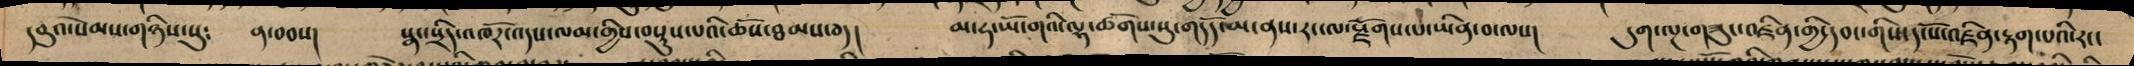དབུའ་སེམས་གཉིས་སུ༴ ན་བབས། སྣང་སྲིད་འཁོར་འདས་ལམ་གྱིས་བསྡུས་པའི་ཆོས་ཐམས་ཅད། མ་ཧ་ཡོ་གའི་ལྷ་ཚོགས་སུ་གདོད་མ་ནས་རང་ལ་སྫོགས་པ་ཡིན་བ་ལས། དུག་ལྔ་གཟུང་འཛིན་གྱི་དབང་གིས་དངོས་འཛིན་རྟག་པའི་རང་
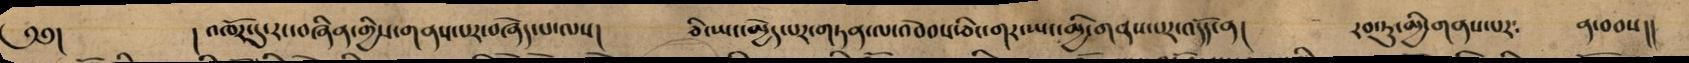༄༅། །འཁོར་དུ་རང་བཞིན་གྱིས་གནས་པར་བཞེད་པ་ལས། ཅི་ཡང་མྱེད་པར་གཏན་ལ་འབེབས་ཅིང་གར་ཡང་མྱི་གནས་པར་འདོད་ན། རབ་ཏུ་མྱི་གནས་པར༴ ན་བབས།།
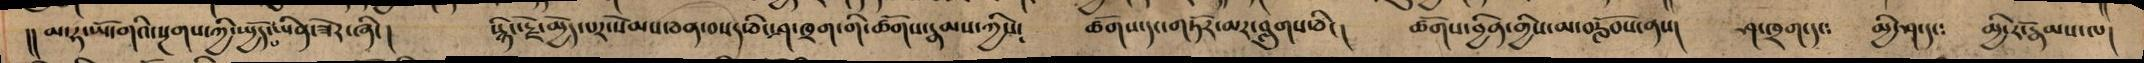།།མ་ཧ་ཡོ་གའི་སྔགས་ཀྱི་སྤྱོད་ཡིན་ཟེར་ཞིང། སྙིང་རྗེ་མྱེད་པར་སེམས་ཅན་བསད་ཅིང་ཤ་ཁྲག་གི་ཚོགས་རྣམས་ཀྱིས། ཚོགས་དང་གཏོར་མར་བླུགས་ཅིང། ཚོགས་བྱིན་གྱིས་མ་བརློབས་ནས། ཤ་ཁྲག་དང༴ མྱི་ཤ་དང༴ མྱི་རོ་རྣམས་ལ།
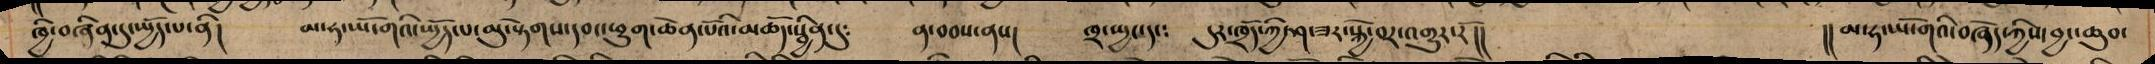ཁྱི་བཞིན་དུ་སྤྱོད་པ་ནི། མ་ཧ་ཡོ་གའི་སྤྱོད་པ་མུ་སྟེགས་དབང་ཕྱུག་ཆེན་པོའི་མཆོད་སྦྱིན་དུ༴ ན་བབས་ནས། ཁྲ་སྤྱང་དང༴ དུར་ཁྲོད་ཀྱི་ཤ་ཟར་སྐྱེ་བར་འགྱུར་རོ།། །།མ་ཧ་ཡོ་གའི་བཞེད་ཀྱིས་བྱང་ཆུབ་
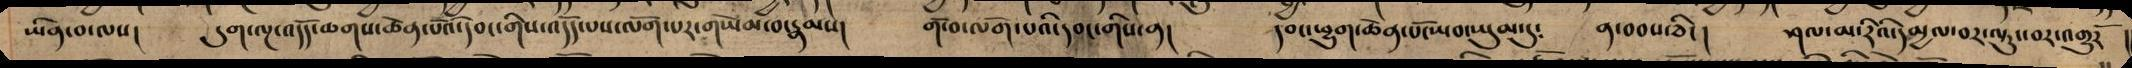ཡིན་བ་ལས། དུག་ལྔ་འདོད་ཆགས་ཆེན་པོའ་དབང་གིས་འདོད་པས་ལོག་པར་གཡེམ་བ་རྣམས། གོ་བ་ལོག་པའི་དབང་གིས་ན། དབང་ཕྱུག་ཆེན་པོ་ཡབ་ཡུམ་དུ༴ ན་བབས་ཅིང། ཤལ་མ་རིའི་དམྱལ་བར་ལྟུང་བར་འགྱུར །
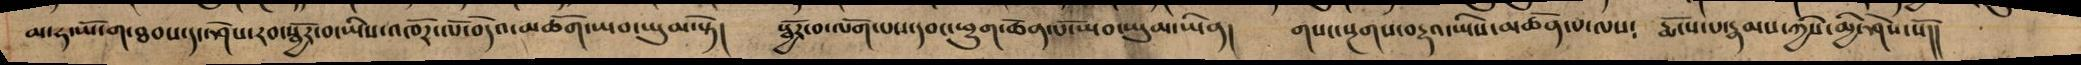མ་ཧ་ཡོ་ག་ཐབས་དང་ཤེས་རབ་སྦྱོར་བ་ཡིས་འཁོར་ལོ་བདེའ་མཆོག་ཡབ་ཡུམ་སྟེ། སྦྱོར་བ་ལོག་པས་དབང་ཕྱུག་ཆེན་པོ་ཡབ་ཡུམ་ཡིན། གསང་སྔགས་བརྡའ་ཡིས་མཚོན་པ་ལས༴ རྨོངས་པ་རྣམས་ཀྱིས་མྱི་ཤེས་སོ།།
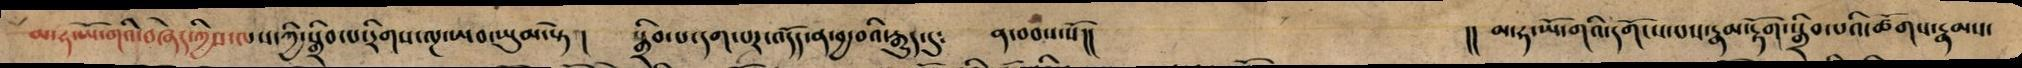མ་ཧ་ཡོ་གའི་བཞེད་ཀྱིས་ལས་ཀྱི་སྒྲིབ་པ་རིགས་ལྔ་ཡབ་ཡུམ་སྟེ། སྒྲིབ་པ་དག་པར་འདོད་ན་བྱ་བའི་རྒྱུད་དུ༴ ན་བབས་སོ།། །། མ་ཧ་ཡོ་གའི་དགོངས་པས་རྣམ་རྟོག་སྒྲིབ་པའི་ཚོགས་རྣམས་
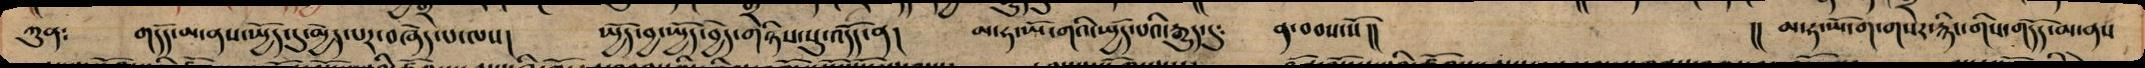ཀུན༴ གདོད་མ་ནས་སྤྱོད་དུ་མྱེད་པར་བཞེད་པ་ལས། སྤྱོད་བྱ་སྤྱོད་བྱེད་གཉིས་སུ་འདོད་ན། མ་ཧ་ཡོ་གའི་སྤྱོད་པའི་རྒྱུད་དུ༴ ན་བབས་སོ།། །། མ་ཧ་ཡོ་ག་གསར་རྙིང་གིས་གདོད་མ་ནས
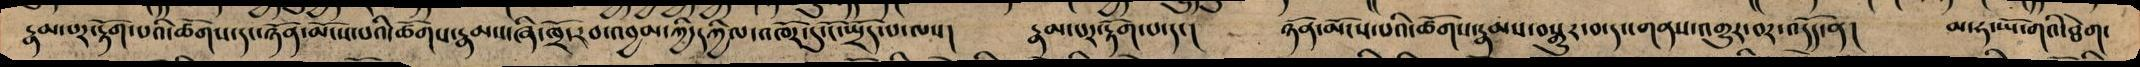རྣམ་པར་རྟོག་པའི་ཚོགས་དང་ཉོན་མོངས་པའི་ཚོགས་རྣམས་ཞི་ཁྲོ་རབ་འབྱམ་ཀྱི་དཀྱིལ་འཁོར་དུ་ངོ་སྤྲོད་པ་ལས། རྣམ་པར་རྟོག་པ་དང། ཉོན་མོངས་པའི་ཚོགས་རྣམས་བསྒྱུར་བ་དང་གནས་འགྱུར་བར་འདོད་ན། མ་ཧ་ཡོ་གའི་ཐེག་
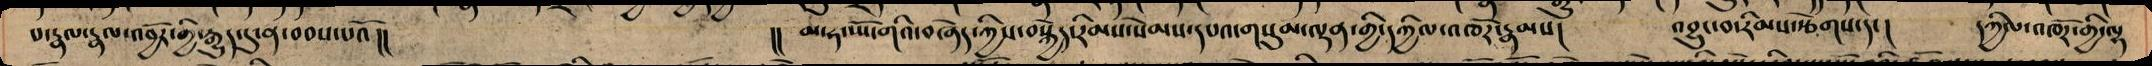པ་རྣལ་རྣལ་འབྱོར་གྱི་རྒྱུད་དུ་ན་བབས་པའོ།། །།མ་ཧ་ཡོ་གའི་བཞེད་ཀྱིས་བསྐྱེད་རིམས་སེམས་དཔའ་གསུམ་ལྡན་གྱི་དཀྱིལ་འཁོར་རྣམས། འབྱུང་བ་རིམས་རྩེགས་དང། དཀྱིལ་འཁོར་གྱི་ལྷ
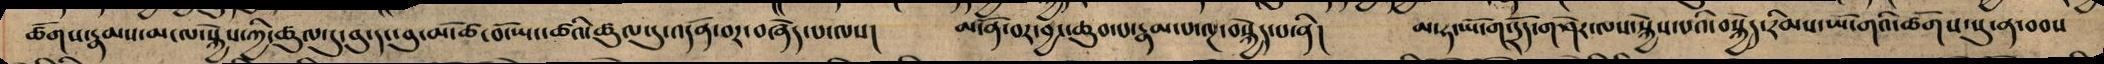ཚོགས་རྣམས་མངལ་སྐྱེས་ཀྱི་ཚུལ་དུ་བུ་དང་བུ་མོ་ཚ་བོ་ཡང་ཚའི་ཚུལ་དུ་འདོན་བར་བཞེད་པ་ལས། མངོན་བར་བྱང་ཆུབ་པ་རྣམ་པ་ལྔ་བསྐྱེད་པ་ནི། མ་ཧ་ཡོ་ག་དྲོད་གཤེར་ལས་སྐྱེས་པའི་བསྐྱེད་རིམས་ཡོ་གའི་ཚོགས་སུ་ན་བབས
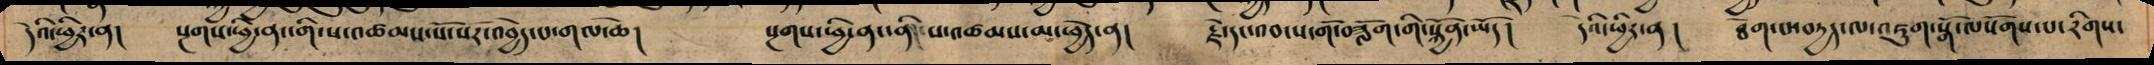དེའི་ཕྱིར་ན། སྔགས་ཕྱི་ནང་གི་ས་འཚམས་སོ་སོར་འབྱེད་པ་གལ་ཆེ། སྔགས་ཕྱི་ནང་ནི་ས་འཚམས་མ་ཕྱེད་ན། རྗེ་དང་འབངས་གོ་བཟློག་གི་སྐྱོན་ཡོད། དེའི་ཕྱིར་ན། ཐེག་པ་བརྱད་ལ་འཇུག་སྒོ་ལསོགས་པ་རིགས་
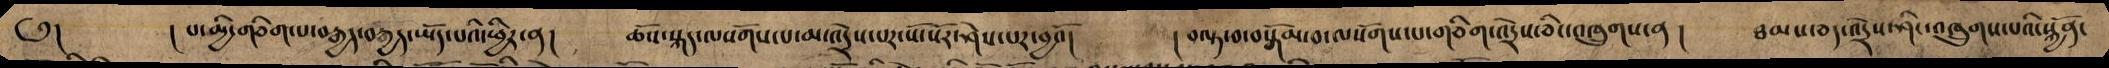༅། ། པ་མྱི་གཅིག་པ་བརྒྱད་བརྒྱད་ཡོད་པའི་ཕྱིར་ན། ཆོས་སྐད་ལསོགས་པ་མ་འདྲེས་པར་སོ་སོར་ཤེས་པར་བྱའོ། །བལྟ་བ་བསྒོམ་བ་ལསོགས་པ་གཅིག་འདྲེས་ཅིང་འཁྲུགས་ན། ཐམས་ཅད་འདྲེས་ཤིང་འཁྲུགས་པའི་སྐྱོན་
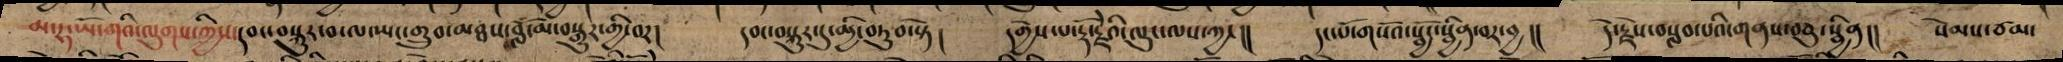མ་ཧ་ཡོ་གའི་ལུགས་ཀྱིས་དབང་བསྐུར་བ་ལ་ཡང་གྲུབ་མཐས་བློ་མ་བསྒྱུར་གྱི་བར། དབང་བསྐུར་དུ་མྱི་བཏུབ་སྟེ། དགྱེས་པ་རྡོ་རྗེའི་ལུང་ལས་ཀྱང།། དང་པོ་གསོའ་སྦྱོང་སྦྱིན་བར་བྱ།། དེ་རྗེས་བསླབ་པའི་གནས་བཅུ་སྦྱིན།། སེམས་ཙམ་
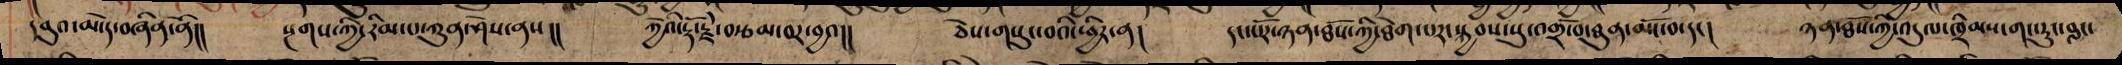དབུའ་མ་དེ་བཞིན་ནོ།། སྔགས་ཀྱི་རིམ་པ་ཀུན་ཤེས་ནས།། ཀྱེའི་རྡོ་རྗེ་བརྩམ་བར་བྱའ།། ཅེས་གསུང་བའི་ཕྱིར་ན། དང་པོར་ཉན་ཐོས་ཀྱི་ཐེག་པར་སྐྱབས་སུ་འགྲོ་བ་ཐུན་མོང་བ་དང། ཉན་ཐོས་ཀྱི་འདུལ་ཁྲིམས་གང་རུང་བླང་
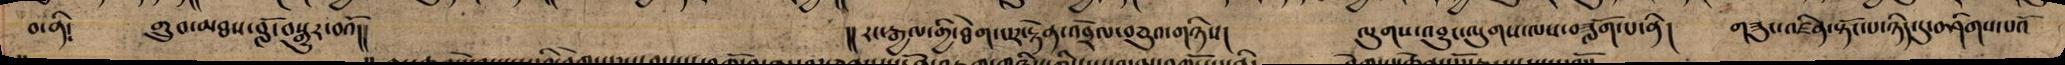བ་ནི༴ གྲུབ་མཐས་བློ་བསྒྱར་བའོ།། །།རང་རྒཡལ་གྱི་ཐེག་པར་རྟེན་འབྲེལ་བཅུའ་གཉིས། ལུགས་འབྱུང་ལུགས་ལས་བཟློག་པ་ནི། གཟུང་འཛིན་སྟོང་པ་ཉིད་དུ་བཤིགས་པའོ
